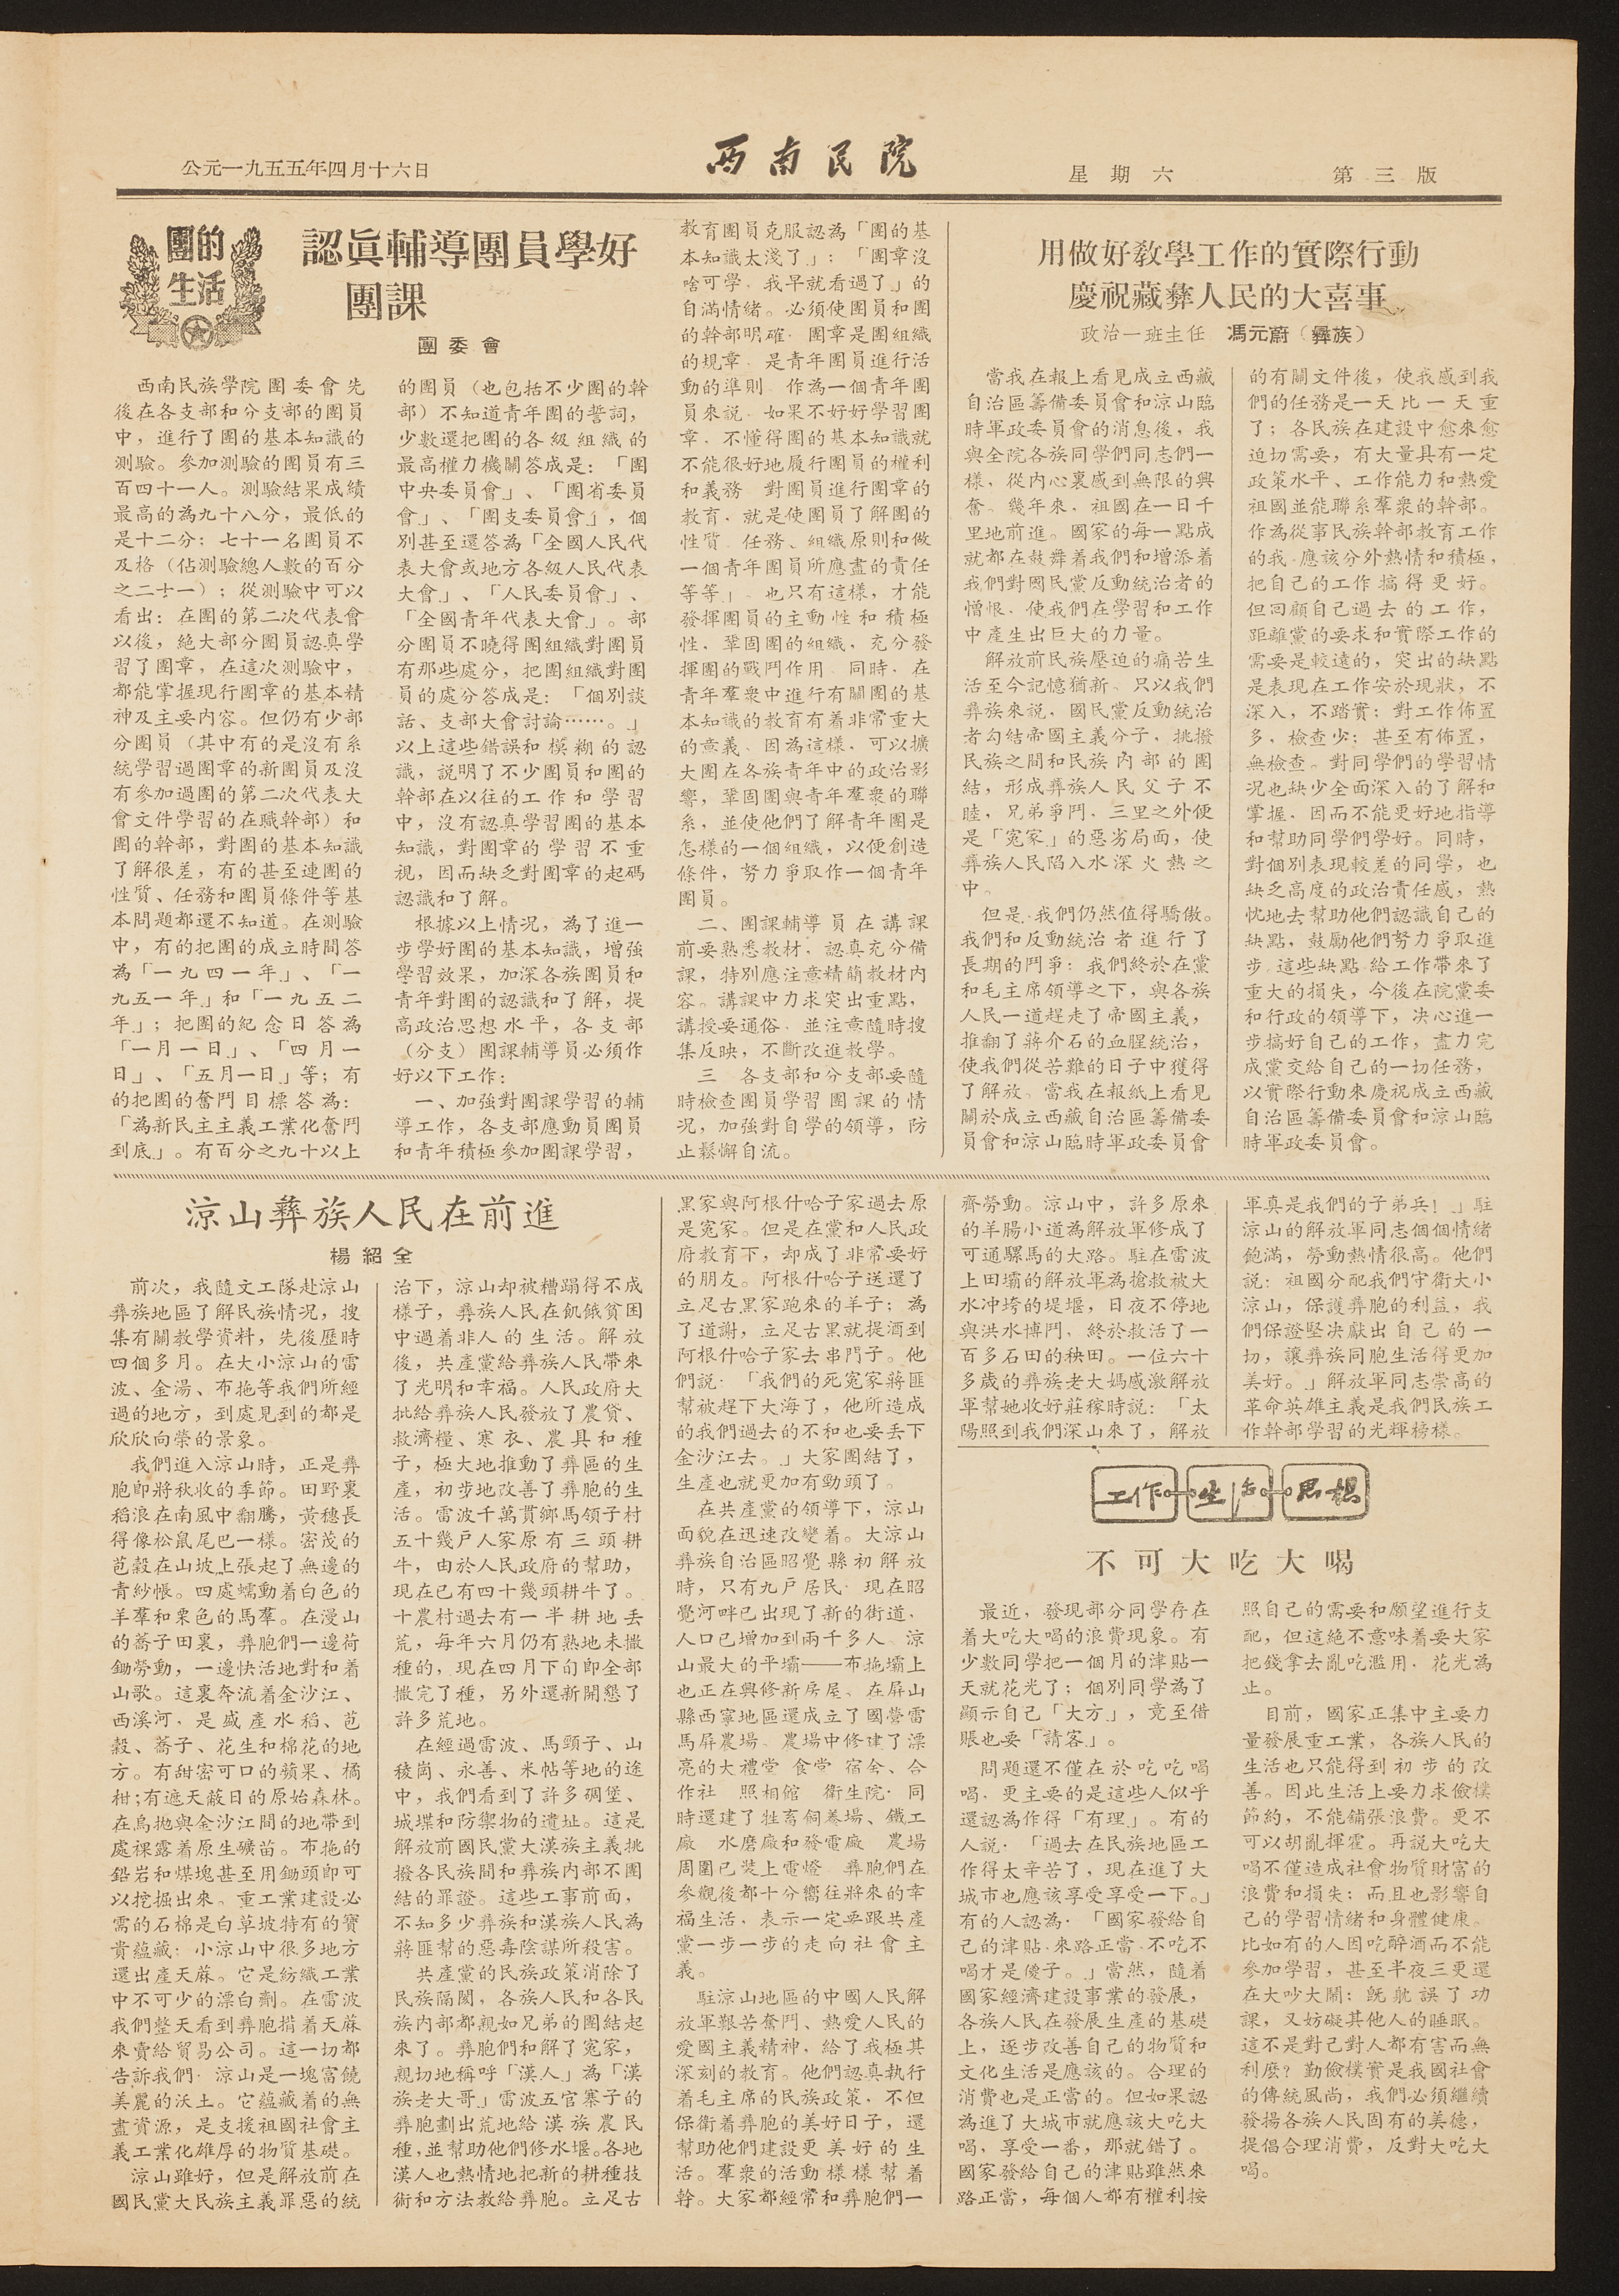公元一九五五年四月十六日 西南民院 星期六 第三版
團的
生活
認眞輔導團員學好
團課
團委會
西南民族學院團委會先
後在各支部和分支部的團員
中，進行了團的基本知識的
測驗。參加測驗的團員有三
百四十一人。測驗結果成績
最高的為九十八分，最低的
是十二分：七十一名團員不
幾個（佔測驗總人數的百分
之二十一）；從測驗中可以
看出：在團的第二次代表會
以後，絕大部分團員認真學
習了團章，在這次測驗中，
都能掌握現行團章的基本精
神及主要內容。但仍有少部
分團員（其中有的是沒有系
統學習過團章的新團員及沒
有參加過團的第二次代表大
會文件學習的在職幹部）和
團的幹部，對團的基本知識
了解很差，有的甚至連團的
性質、任務和團員條件等基
本問題都還不知道。在測驗
中，有的把團的成立時間答
為「一九四一年」、「一
九五一年」和「一九五二
年」；把團的紀念日答為
「一月一日」、「四月一
日」、「五月一日」等；有
的把團的奮鬥目標答為：
「為新民主主義工業化奮鬥
到底」。有百分之九十以上
的團員（也包括不少團的幹
部）不知道青年團的誓詞，
少數還把團的各級組織的
最高權力機關答成是：「團
中央委員會」、「團省委員
會」、「團支委員會」，個
別甚至還答為「全國人民代
表大會或地方各級人民代表
大會」、「人民委員會」、
「全國青年代表大會」。部
分團員不曉得團組織對團員
有那些處分，把團組織對團
員的處分答成是：「個別談
話、支部大會討論……。」
以上這些錯誤和模糊的認
識，說明了不少團員和團的
幹部在以往的工作和學習
中，沒有認真學習團的基本
知識，對團章的學習不重
視，因而缺乏對團章的起碼
認識和了解。
根據以上情況，為了進一
步學好團的基本知識，增強
學習效果，加深各族團員和
青年對團的認識和了解，提
高政治思想水平，各支部
（分支）團課輔導員必須作
好以下工作：
一、加強對團課學習的輔
導工作，各支部應動員團員
和青年積極參加團課學習，
教育團員克服認為「團的基
本知識太淺了」；「團章沒
啥可學，我早就看過了」的
自滿情緒。必須使團員和團
的幹部明確，團章是團組織
的規章，是青年團員進行活
動的準則。作為一個青年團
員來說，如果不好好學習團
章，不懂得團的基本知識就
不能很好地履行團員的權利
和義務，對團員急性團章的
教育，就是使團員了解團的
性質、任務、組織原則和做
一個青年團員所應盡的責任
等等」。也只有這樣，才能
發揮團員的主動性和積極
性，鞏固團的組織，充分發
揮團的戰鬥作用。同時，在
青年羣衆中進行有關團的基
本知識的教育有着非常重大
的意義、因為這樣，可以擴
大團在各族青年中的政治影
響，鞏固團與青年羣衆的聯
系，並使他們了解青年團是
怎樣的一個組織，以便創造
條件，努力爭取作一個青年
團員。
二、團課輔導員在講課
前要熟悉教材，認真充分備
課，特別應注意精簡教材內
容。講課中力求突出重點，
講授要通俗，並注意隨時搜
集反映，不斷改進教學。
三、各支部和分支部要隨
時檢查團員學習團課的情
況，加強對自學的領導，防
止鬆懈自流。
用做好敎學工作的實際行動
慶祝藏彝人民的大喜事
政治一班主任 馮元蔚（彝族）
當我在報上看見成立西藏
自治區籌備委員會和涼山臨
時軍政委員會的消息後，我
與全院各族同學們同志們一
樣，從內心裏感到無限的興
奮。幾年來，祖國在一日千
里地前進。國家的每一點成
就都在鼓舞着我們和增添着
我們對國民黨反動統治者的
憎恨，使我們在學習和工作
中產生出巨大的力量。
解放前民族壓迫的痛苦生
活至今記憶猶新。只以我們
彝族來說，國民黨反動統治
者勾結帝國主義分子，挑撥
民族之間和民族內部的團
結，形成彝族人民父子不
睦，兄弟爭鬥，三里之外便
是「冤家」的惡劣局面，使
彝族人民陷入水深火熱之
中。
但是，我們仍然值得驕傲。
我們和反動統治者進行了
長期的鬥爭：我們終於在黨
和毛主席領導之下，與各族
人民一道趕走了帝國主義，
推翻了蔣介石的血腥統治，
使我們從苦難的日子中獲得
了解放。當我在報紙上看見
關於成立西藏自治區籌備委
員會和涼山臨時軍政委員會
的有關文件後，使我感到我
們的任務是一天比一天重
了；各民族在建設中愈來愈
迫切需要，有大量具有一定
政策水平、工作能力和熱愛
祖國並能聯系羣衆的幹部。
作為從事民族幹部教育工作
的我，應該分外熱情和積極，
把自己的工作搞得更好。
但囘顧自己過去的工作，
距離黨的要求和實際工作的
需要是較遠的，突出的缺點
是表現在工作安於現狀，不
深入，不踏實；對工作佈置
多，檢查少；甚至有佈置，
無檢查。對同學們的學習情
況也缺少全面深入的了解和
掌握，因而不能更好地指導
和幫助同學們學好。同時，
對個別表現較差的同學，也
缺乏高度的政治責任感，熱
忱地去幫助他們認識自己的
缺點，鼓勵他們努力爭取進
步，這些缺點給工作帶來了
重大的損失，今後在院黨委
和行政的領導下，決心進一
步搞好自己的工作，盡力完
成黨交給自己的一切任務，
以實際行動來慶祝成立西藏
自治區籌備委員會和涼山臨
時軍政委員會。
涼山彝族人民在前進
楊 紹 全
前次，我隨文公隊赴涼山
彝族地區了解民族情況，搜
集有關教學資料，先後歷時
四個多月。在大小涼山的雷
波、金湯、布拖等我們所經
過的地方，到處見到的都是
欣欣向榮的景象。
我們進入涼山時，正是彝
胞卽將秋收的季節。田野裏
稻浪在南風中翻騰，黃穗長
得像松鼠尾巴一樣。密茂的
苞穀在山坡上張起了無邊的
青紗帳。四處蠕動着白色的
羊羣和栗色的馬羣。在漫山
的蕎子田裏，彝胞們以便荷
鋤勞動，一邊快活地對和着
山歌。這裏奔流着金沙江、
西溪河，是盛產水稻、苞
穀、蕎子、花生和棉花的地
方。有甜密可口的蘋果、橘
柑；有遮天蔽日的原始森林。
在烏拋與金沙江間的地帶到
處裸露着原生礦苗。布拖的
鉛岩和煤塊甚至用鋤頭卽可
以挖掘出來。重工業建設必
需的石棉是白草坡特有的寶
貴蘊藏；小涼山中很多地方
海出產天蔴。它是紡織工業
中不可少的漂白劑。在雷波
我們整天看到彝胞揹着天蔴
來賣給貿易公司。這一切都
告訴我們：涼山是一塊富饒
美麗的沃土。它蘊藏着的無
盡資源，是支援祖國社會主
義工業化雄厚的物質基礎。
涼山雖好，但是解放前在
國民黨大民族主義罪惡的統
治下，涼山卻被糟蹋得不成
樣子，彝族人民在飢餓貧困
中過着非人的生活。解放
後，共產黨給彝族人民帶來
了光明和幸福。人民政府大
批給彝族人民發放了農貸、
救濟糧、寒衣、農具和種
子，極大地推動了彝區的生
產，初步地改善了彝胞的生
活。雷波千萬貫鄉馬領子村
五十幾戶人家原有三頭耕
牛，由於人民政府的幫助，
現在已有四十幾頭耕牛了。
十農村過去有一般耕地丟
荒，每年六月仍有熟地未撒
種的，現在四月下旬卽全部
撒完了種，另外還新開墾了
許多荒地。
在經過雷波、馬頸子、山
稜崗、永善、米帖等地的途
中，我們看到了許多碉堡、
城堞和防禦物的遺址。這是
解放前國民黨大漢族主義挑
撥各民族間和彝族內部不團
結的罪證。這些工事前面，
不知多少彝族和漢族人民為
將匪幫的惡毒陰謀所殺害。
共產黨的民族政策消除了
民族隔閡，各族人民和各民
族內部都親如兄弟的團結起
來了。彝胞們和解了冤家，
親切地稱呼「漢人」為「漢
族老大哥」雷波五官寨子的
彝胞劃出荒地給漢族農民
種，並幫助他們修水堰。各地
漢人也熱情地把新的耕種技
術和方法教給彝胞。立足古
黑家與阿根什哈子家過去原
是冤家。但是在黨和人民政
府教育下，却成了非常要好
的朋友。阿根什哈子送還了
立足古黑家跑來的羊子；為
了道謝，立足古黑就提酒到
阿根什哈子家去串門子。他
們說：「我們的死冤家將匪
幫被趕下大海了，他所造成
的我們過去的不和也要丟下
金沙江去。」大家團結了，
生產也就更加有勁頭了。
在共產黨的領導下，涼山
面貌在迅速改善着。大涼山
彝族自治區昭覺縣初解放
時，只有九戶居民，現在昭
覺河畔已出現了新的街道，
人口已增加到兩千多人。涼
山最大的平壩——布拖壩上
也正在興修新房屋。在屏山
縣西寧地區還成立了國營雷
馬屏農場。農場中修建了漂
亮的大禮堂 食堂 宿舍、合
作社 照相館 衛生院，同
時還建了牲畜飼養場、鐵工
廠 水磨廠和發電廠 農場
周圍已裝上電燈 彝胞們在
參觀後都十分嚮往將來的幸
福生活，表示一定要跟共產
黨一步一步的走向社會主
義。
駐涼山地區的中國人民解
放軍艱苦奮鬥、熱愛人民的
愛國主義精神，給了我極其
深刻的教育。他們認真執行
着毛主席的民族政策，不但
保衛着彝胞的美好日子，還
幫助他們建設更美好的生
活。羣衆的活動樣樣幫着
幹。大家都經常和彝胞們一
齊勞動。涼山中，許多原來
的羊腸小道為解放軍修成了
可通騾馬的大路。駐在雷波
上田壩的解放軍為搶救被大
水沖垮的堤堰，日夜不停地
與洪水搏鬥，終於救活了一
百多石田的秧田。一位六十
多歲的彝族老大媽感激解放
軍幫她收好莊稼時說：「太
陽照到我們深山來了，解放
軍真是我們的子弟兵！」駐
涼山的解放軍同志個個情緒
飽滿，勞動熱情很高。他們
說：祖國分配我們守衛大小
涼山，保衛彝胞的利益，我
們保證堅決獻出自己的一
切，讓彝族同胞生活得更加
美好。」解放軍同志崇高的
革命英雄主義是我們民族工
作幹部學習的光輝榜樣。
工作 生活 思想
不 可 大 吃 大 喝
最近，發現部分同學存在
着大吃大喝的浪費現象。有
少數同學把一個月的津貼一
田就花光了；個別同學為了
顯示自己「大方」，竟至借
賬也要「請客」。
問題還不僅在於吃吃喝
喝，更主要的是這些人似乎
還認為作得「有理」。有的
人說：「過去在民族地區工
作得太辛苦了，現在進了大
城市也應該享受一下。」
有的人認為：「國家發給自
己的津貼，來路正當，不吃不
喝才是傻子。」當然，隨着
國家經濟建設事業的發展，
各族人民在發展生產的基礎
上，逐步改善自己的物質和
文化生活是應該的。合理的
消費也是正當的。但如果認
為進了大城市就應該大吃大
喝，享受一番，那就錯了。
國家發給自己的津貼雖然來
路正當，每個人都有權利按
照自己的需要和願望進行支配
配，但這絕不意味着要大家
把錢拿去亂吃濫用，花光為
止。
目前，國家正集中主要力
量發展重工業，各族人民的
生活也只能得到初步的改
善。因此生活上要力求儉樸
節約，不能鋪張浪費。更不
可以胡亂揮霍。再說大吃大
喝不僅造成社會物質財富的
浪費和損失；而且也影響自
己的學習情緒和身體健康。
比如有的人因吃醉酒而不能
參加學習，甚至半夜三更還
在大吵大鬧；旣躭誤了功
課，又妨礙其他人的睡眠。
這不是對己對人都有害而無
利麼？勤儉樸實是我國社會
的傳統風尚，我們必須繼續
發揚各族人民固有的美德，
提倡合理消費，反對大吃大
喝。
